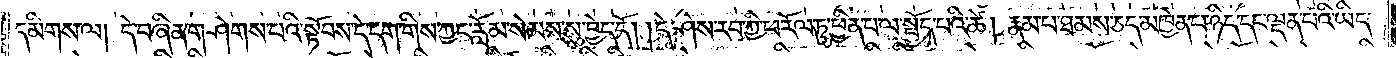དམིགས་ལ། དེ་བཞིན་གཤེགས་པའི་སྟོབས་དེ་དག་གིས་ཀྱང་རློམ་སེམས་སུ་བྱེད་དོ། །དེ་ཤེས་རབ་ཀྱི་ཕ་རོལ་ཏུ་ཕྱིན་པ་ལ་སྤྱོད་པའི་ཚེ། རྣམ་པ་ཐམས་ཅད་མཁྱེན་པ་ཉིད་དང་ལྡན་པའི་ཡིད་
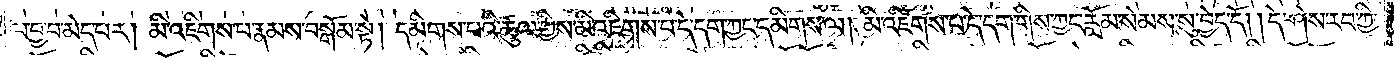ལ་བྱ་བ་མེད་པར། མི་འཇིགས་པ་རྣམས་བསྒོམ་སྟེ། དམིགས་པའི་ཚུལ་གྱིས་མི་འཇིགས་པ་དེ་དག་ཀྱང་དམིགས་ལ། མི་འཇིགས་པ་དེ་དག་གིས་ཀྱང་རློམ་སེམས་སུ་བྱེད་དོ། །དེ་ཤེས་རབ་ཀྱི་
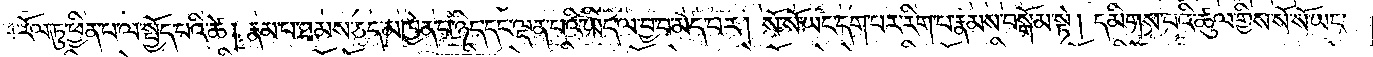ཕ་རོལ་ཏུ་ཕྱིན་པ་ལ་སྤྱོད་པའི་ཚེ། རྣམ་པ་ཐམས་ཅད་མཁྱེན་པ་ཉིད་དང་ལྡན་པའི་ཡིད་ལ་བྱ་བ་མེད་པར། སོ་སོ་ཡང་དག་པར་རིག་པ་རྣམས་བསྒོམ་སྟེ། དམིགས་པའི་ཚུལ་གྱིས་སོ་སོ་ཡང་
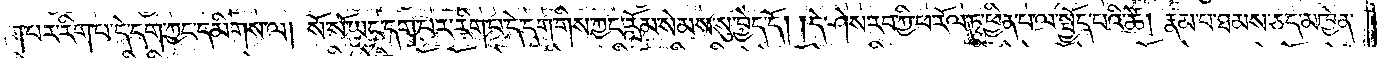དག་པར་རིག་པ་ད་དག་ཀྱང་དམིགས་ལ། སོ་སོ་ཡང་དག་པར་རིག་པ་དེ་དག་གིས་ཀྱང་རློམ་སེམས་སུ་བྱེད་དོ། །དེ་ཤེས་རབ་ཀྱི་ཕ་རོལ་ཏུ་ཕྱིན་པ་ལ་སྤྱོད་པའི་ཚེ། རྣམ་པ་ཐམས་ཅད་མཁྱེན་
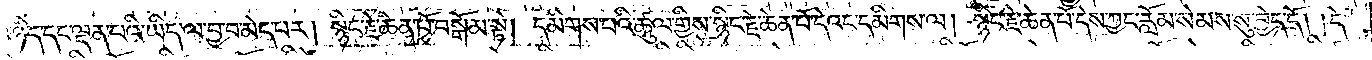པ་ཉིད་དང་ལྡན་པའི་ཡིད་ལ་བྱ་བ་མེད་པར། སྙིང་རྗེ་ཆེན་པོ་བསྒོམ་སྟེ། དམིགས་པའི་ཚུལ་གྱིས་སྙིང་རྗེ་ཆེན་པོ་དེའང་དམིགས་ལ། སྙིང་རྗེ་ཆེན་པོ་དེས་ཀྱང་རློམ་སེམས་སུ་བྱེད་དོ། །དེ་
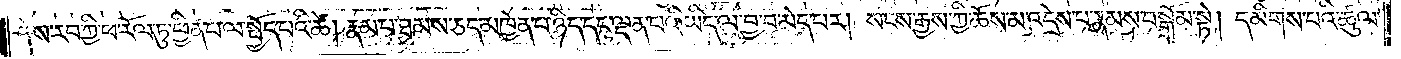ཤེས་རབ་ཀྱི་ཕ་རོལ་ཏུ་ཕྱིན་པ་ལ་སྤྱོད་པའི་ཚེ། རྣམ་པ་ཐམས་ཅད་མཁྱེན་པ་ཉིད་དང་ལྡན་པའི་ཡིད་ལ་བྱ་བ་མེད་པར། སངས་རྒྱས་ཀྱི་ཆོས་མ་འདྲེས་པ་རྣམས་བསྒོམ་སྟེ། དམིགས་པའི་ཚུལ་
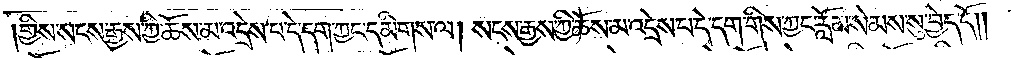གྱིས་སངས་རྒྱས་ཀྱི་ཆོས་མ་འདྲེས་པ་དེ་དག་ཀྱང་དམིགས་ལ། སངས་རྒྱས་ཀྱི་ཆོས་མ་འདྲེས་པ་དེ་དག་གིས་ཀྱང་རློམ་སེམས་སུ་བྱེད་དོ༎
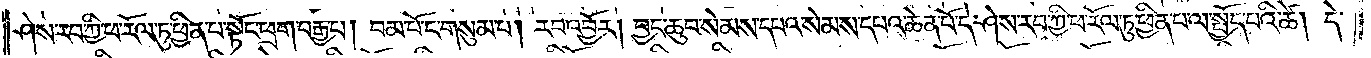ཤེས་རབ་ཀྱི་ཕ་རོལ་ཏུ་ཕྱིན་པ་སྟོང་ཕྲག་བརྒྱ་པ། །བམ་པོ་ང་གསུམ་པ། །རབ་འབྱོར། བྱང་ཆུབ་སེམས་དཔའ་སེམས་དཔའ་ཆེན་པོ་དེ་ཤེས་རབ་ཀྱི་ཕ་རོལ་ཏུ་ཕྱིན་པ་ལ་སྤྱོད་པའི་ཚེ། དེ་
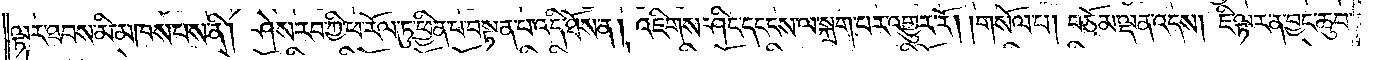ལྟར་ཐབས་མི་མཁས་པས་ནི། ཤེས་རབ་ཀྱི་ཕ་རོལ་ཏུ་ཕྱིན་པ་བསྟན་པ་འདི་ཐོས་ན། འཇིགས་ཤིང་དངངས་ལ་སྐྲག་པར་འགྱུར་རོ། །གསོལ་པ། བཅོམ་ལྡན་འདས། ཇི་ལྟར་ན་བྱང་ཆུབ་
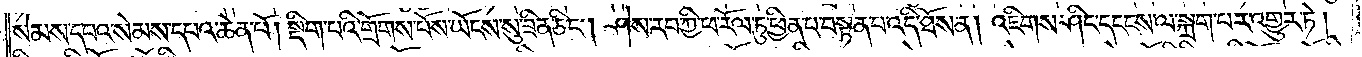སེམས་དཔའ་སེམས་དཔའ་ཆེན་པོ། སྡིག་པའི་གྲོགས་པོས་ཡོངས་སུ་ཟིན་ཅིང༌། ཤེས་རབ་ཀྱི་ཕ་རོལ་ཏུ་ཕྱིན་པ་བསྟན་པ་འདི་ཐོས་ན། འཇིགས་ཤིང་དངངས་ལ་སྐྲག་པར་འགྱུར་ཏེ།
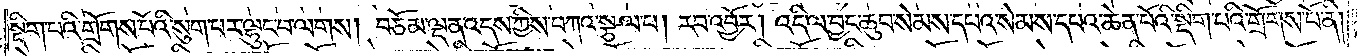སྡིག་པའི་གྲོགས་པོའི་སུག་པར་ལྷུང་བ་ལགས། བཅོམ་ལྡན་འདས་ཀྱིས་བཀའ་སྩལ་པ། རབ་འབྱོར། འདི་ལ་བྱང་ཆུབ་སེམས་དཔའ་སེམས་དཔའ་ཆེན་པོ་སྡིག་པའི་གྲོགས་པོ་ནི།
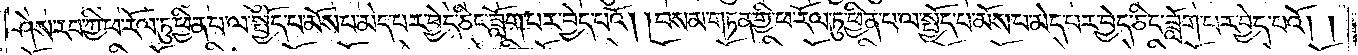ཤེས་རབ་ཀྱི་ཕ་རོལ་ཏུ་ཕྱིན་པ་ལ་སྤྱོད་པ་མོས་པ་མེད་པར་བྱེད་ཅིང་ཟློག་པར་བྱེད་པའོ། །བསམ་གཏན་གྱི་ཕ་རོལ་ཏུ་ཕྱིན་པ་ལ་སྤྱོད་པ་མོས་པ་མེད་པར་བྱེད་ཅིང་ཟློག་པར་བྱེད་པའོ། །
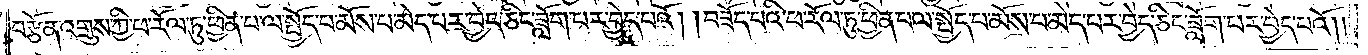བརྩོན་འགྲུས་ཀྱི་ཕ་རོལ་ཏུ་ཕྱིན་པ་ལ་སྤྱོད་པ་མོས་པ་མེད་པར་བྱེད་ཅིང་ཟློག་པར་བྱད་པའོ། །བཟོད་པའི་ཕ་རོལ་ཏུ་ཕྱིན་པ་ལ་སྤྱོད་པ་མོས་པ་མེད་པར་བྱེད་ཅིང་ཟློག་པར་བྱེད་པའོ༎
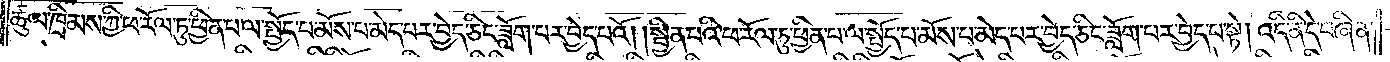ཚུལ་ཁྲིམས་ཀྱི་ཕ་རོལ་ཏུ་ཕྱིན་པ་ལ་སྤྱོད་པ་མོས་པ་མེད་པར་བྱེད་ཅིང་ཟློག་པར་བྱེད་པའོ། །སྦྱིན་པའི་ཕ་རོལ་ཏུ་ཕྱིན་པ་ལ་སྤྱོད་པ་མོས་པ་མེད་པར་བྱེད་ཅིང་ཟློག་པར་བྱེད་པ་སྟེ། འདི་ནི་དེ་བཞིན་
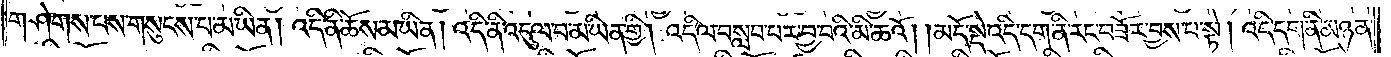གཤེགས་པས་གསུངས་པ་མ་ཡིན། འདི་ནི་ཆོས་མ་ཡིན། འདི་ནི་འདུལ་བ་མ་ཡིན་གྱི། འདི་ལ་བསླབ་པར་བྱ་བའི་མི་ཆའོ། །མདོ་སྡེ་འདི་དག་ནི་རང་བཟོར་བྱས་པ་སྟེ། འདི་དག་ནི་མཉན་
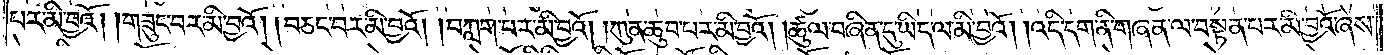པར་མི་བྱའོ། །གཟུང་བར་མི་བྱའོ། །བཅང་བར་མི་བྱའོ། །བཀླག་པར་མི་བྱའོ། །ཀུན་ཆུབ་པར་མི་བྱའོ། །ཚུལ་བཞིན་དུ་ཡིད་ལ་མི་བྱའོ། །འདི་དག་ནི་གཞན་ལ་བསྟན་པར་མི་བྱའོ་ཞེས་
